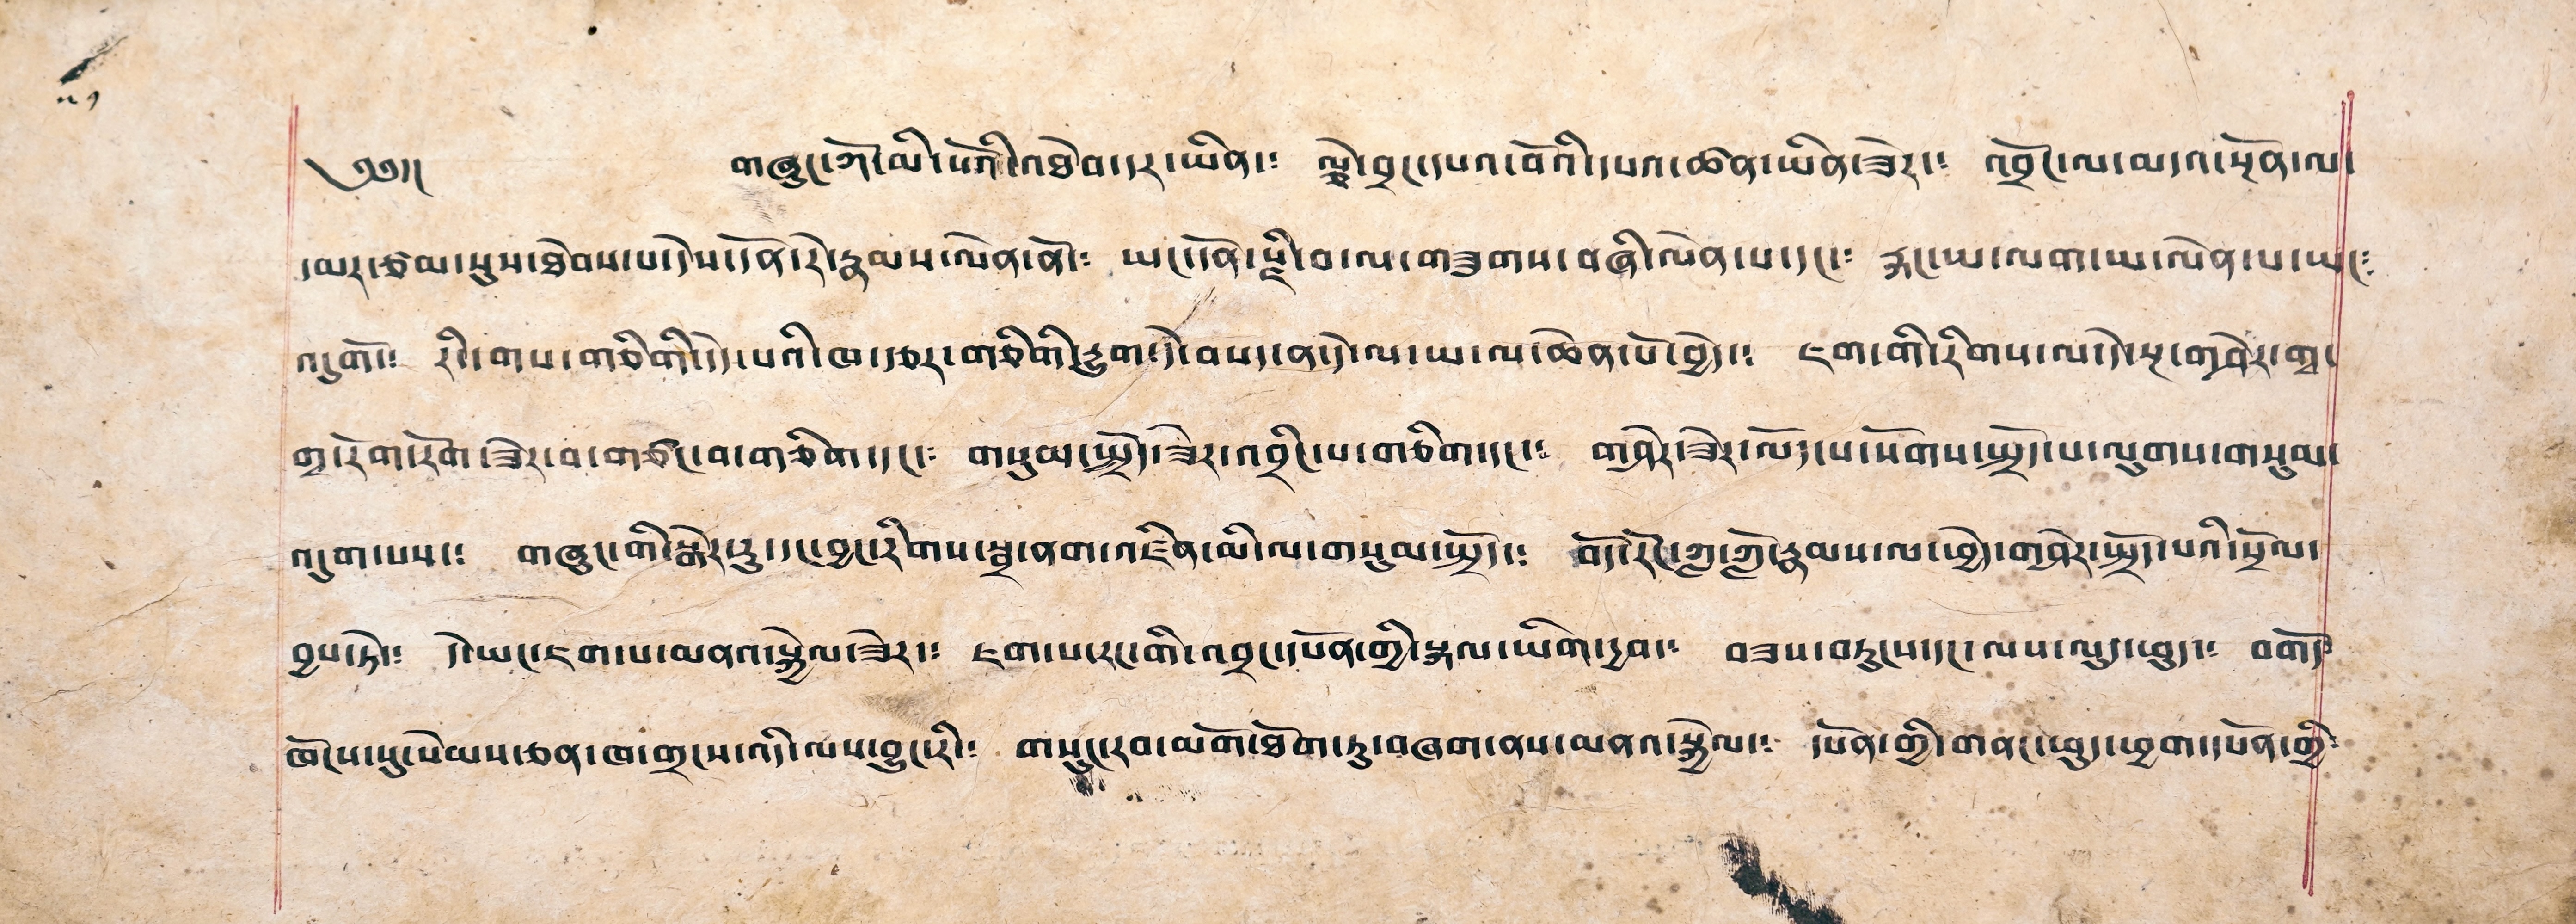༄༅།། གཞུང་ཀོ་མི་པོའི་འཐེབ་དར་ཡིན་༴ ལྕེ་བྲང་དཔའ་བོའི་དཔའ་ཚན་ཡིན་ཟེར་༴ འབྲོང་ལ་མདའ་སྔོན་ལ་
དམར་ཙམ་སུས་ཐེབས་པ་དེས་དོན་རེ་རྣམས་ལེན་ནོ་༴ ཡང་དོན་རྫི་བ་ལ་གཟུགས་བཞི་ལེན་པ་དང་༴ རྐང་ཡ་ལག་ཡ་ལེན་པ་ཡང༴
འདུགོ་། རིང་གས་གཅིགི་དེ་པའི་ཁ་རྩར་གཅིགི་དྱུག་དེ་བསད་ན་དེ་ལ་ཡ་ལ་ཆེན་པོ་བྱེད་༴ ཇག་གི་རིགས་ལ་དེ་སྔ་གཤེར་གྭ་
གྭ་རོག་རོག་ཟེར་བ་གཙང་བ་གཅིག་དང་༴ གསུམ་སྤྲོད་ཟེར་འབྲིང་པ་གཅིག་དང་༴ གཤེར་ཟེར་ལོད་པ་སོགས་སྤྲོད་པ་ལུགས་གསུམ་
འདུག་པས་༴ གཞུང་གྱི་སྒེར་རུ་དང་བྱང་རིགས་སྦྲ་ནག་འཛིན་མི་ལ་གསུམ་སྤྲོད་༴ བོད་རོང་ཀླ་ཀློ་རྣམས་ལ་ཕྱེད་གཤེར་སྤྲོད་པའི་སྲོལ་
བྱས་ཏེ་༴ དེ་ཡང་ཇག་པ་མནའ་སྐྱེལ་ཟེར་༴ ཇག་པ་རང་གི་འབྲང་དཔོན་གྱི་སྐལ་ཡིག་དྱབ་༴ བཟས་བཏུངས་དང་ལས་ལུད་ཕུད་༴ བགོད༴
ཁོངས་སུ་སེམས་ཅན་ཁ་གྲངས་འདི་ལས་བྱུང་རི་༴ གསུང་རབ་མགོ་ཐོག་ཏུ་བཞག་ནས་མནའ་སྐྱེལ་༴ དཔོན་གྱི་གནང་ཕུད་ཕྱག་དཔོན་གྱི༴
